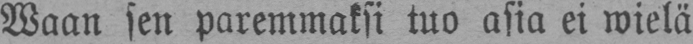Waan sen paremmaksi tuo asia ei wielä
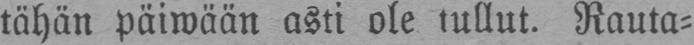tähän päiwään aski ole tullut. Rauta-
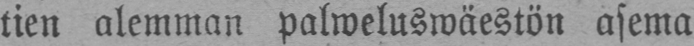tien alemman palweluswäestön asema
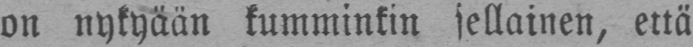on nykyään kumminkin sellainen, että
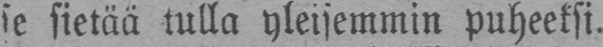se sietää tulla yleisemmin puheeksi.
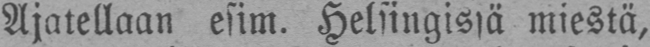Ajatellaan esim. Helsingissä miestä,
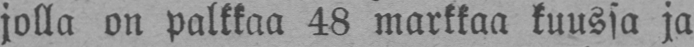jolla on palkkaa 48 markkaa kuussa ja
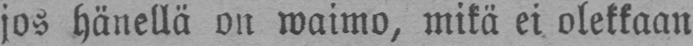jos hänellä on waimo, mikä ei olekkaan
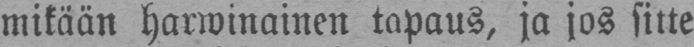mikään harwinainen tapaus, ja jos sitte
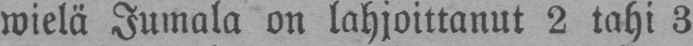wielä Jumala on lahjoittanut 2 tahi 3
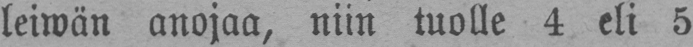leiwän anojaa, niin tuolle 4 eli 5
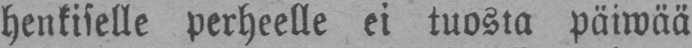henkiselle perheelle ei tuosta päiwää
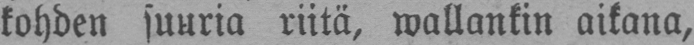kohden suuria riitä, wallankin aikana,
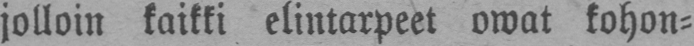jolloin kaikki elintarpeet owat kohon-
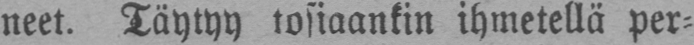neet. Täytyy tosiaankin ihmetellä per-
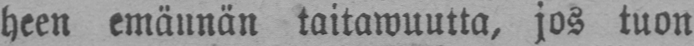heen emännän taitawuutta, jos tuon
